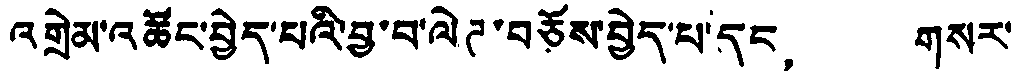འགྲེམ་འཚོང་བྱེད་པའི་བྱ་བ་ལེཊ་བཅོས་བྱེད་པ་དང， གསར་
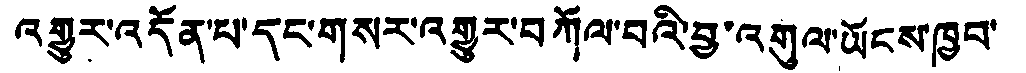འགྱུར་འདོན་པ་དང་གསར་འགྱུར་བཀོལ་བའི་བྱ་འགུལ་ཡོངས་ཁྱབ་
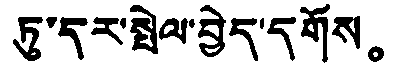ཏུ་དར་སྤེལ་བྱེད་དགོས。
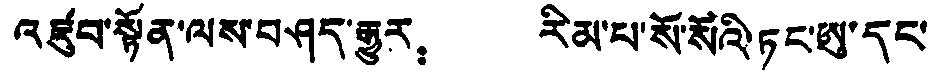འཛུབ་སྟོན་ལས་བཤད་རྒྱུར： རིམ་པ་སོ་སོའི་ཏང་ཨུ་དང་
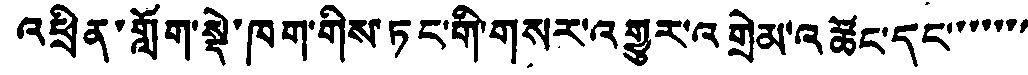འཕྲིན་གློག་སྡེ་ཁག་གིས་ཏང་གི་གསར་འགྱུར་འགྲེམ་འཚོང་དང་་་་་་་
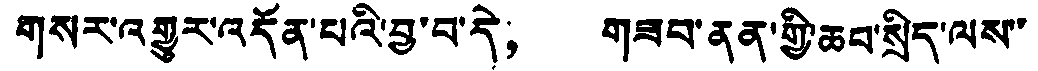གསར་འགྱུར་འདོན་པའི་བྱ་བ་དེ， གཟབ་ནན་གྱི་ཆབ་སྲིད་ལས་་
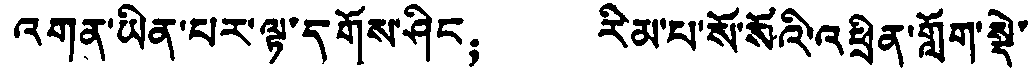འགན་ཡིན་པར་ལྟ་དགོས་ཤིང； རིམ་པ་སོ་སོའི་འཕྲིན་གློག་སྡེ་
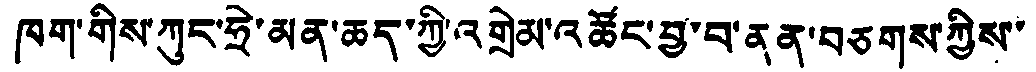ཁག་གིས་ཀུང་ཧྲེ་མན་ཆད་ཀྱི་འགྲེམ་འཚོང་བྱ་བ་ནན་བཅགས་ཀྱིས་་
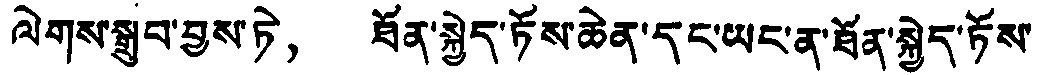ལེགས་སྒྲུབ་བྱས་ཏེ， ཐོན་སྐྱེད་ཏོས་ཆེན་དང་ཡང་ན་ཐོན་སྐྱེད་ཏོས་
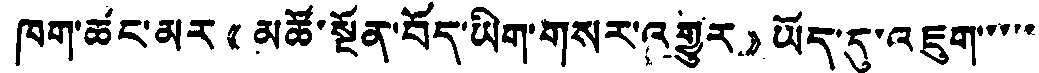ཁག་ཚང་མར《མཚོ་སྔོན་བོད་ཡིག་གསར་འགྱུར》ཡོད་དུ་འཇུག་་་་་
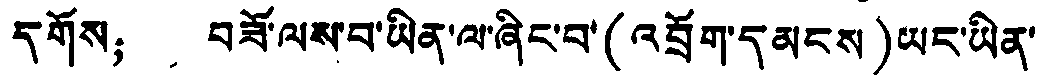དགོས； བཟོ་ལས་པ་ཡིན་ལ་ཞིང་བ་(འབྲོག་དམངས)ཡང་ཡིན་
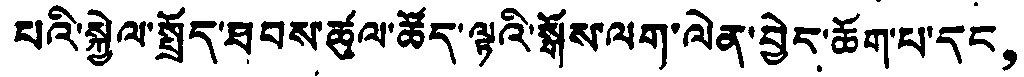པའི་སྐྱེལ་སྤྲོད་ཐབས་ཚུལ་ཚོད་ལྟའི་སྒོས་ལག་ལེན་བྱེད་ཆོག་པ་དང，
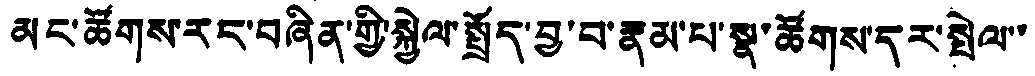མང་ཚོགས་རང་བཞིན་གྱི་སྐྱེལ་སྤྲོད་བྱ་བ་རྣམ་པ་སྣ་ཚོགས་དར་སྤེལ་་
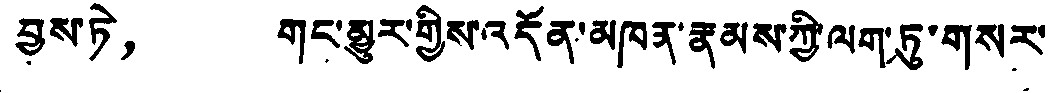བྱས་ཏེ， གང་མྱུར་གྱིས་འདོན་མཁན་རྣམས་ཀྱི་ལག་ཏུ་གསར་
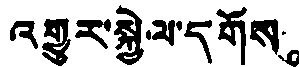འགྱུར་སྐྱེལ་དགོས。
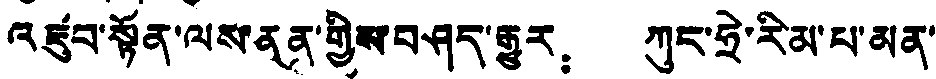འཛུབ་སྟོན་ལས་ནན་གྱིས་བཤད་རྒྱུར： ཀུང་ཧྲེ་རིམ་པ་མན་
